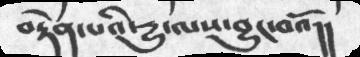བརྟེན་པའི་དྱུ་ལས་བྱུང་བའོ།།
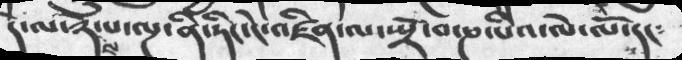དེ་ལ་ཉེས་པ་ལྔ་ནི་ཏིང་ངེ་འཛིན་ལ་སྤྲོ་བ་ཎ་པའི་ལེ་ལོ་དང༴
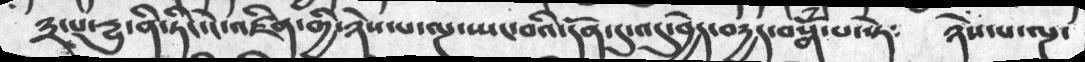༣་པ་དྱུ་ནི་ཏིང་ངེ་འཛིན་གྱི་ཉེས་པ་ལྔ་སྤང་བའི་དོན་དུ་འདུ་བྱེད་བདྱད་བསྒོཾ་པ་སྟེ༴   ཉེས་པ་ལྔ་
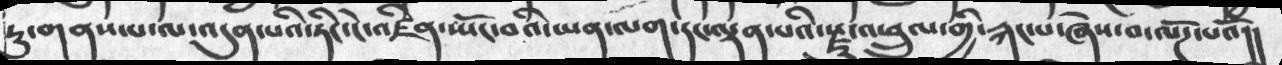ཏུ་གནས་པ་ལ་འདུན་པའི་ཏིང་ངེ་འཛིན་སྤོང་བའི་ཡན་ལག་དང་ལྡན་པའི་རྫུ་འཕྲུལ་གྱི་རྐང་པ་ཞེས་བ་ལོཌ་པའོ།།
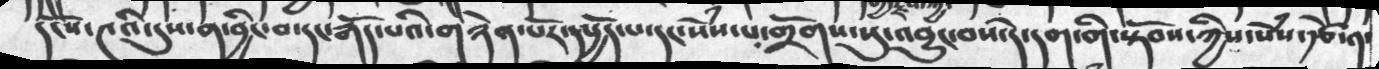དངོས་༤འི་དུས་ན་བྱིང་བ་དང་རྒོད་པའི་གཉེན་པོར་དཔྱོད་པ་དང་སེཾས་པ་གྲོགས་སུ་འབྱུང་བས་དེ་དག་གི་སྟོབས་ཀྱིས་སེཾས་རྩེ་༡་
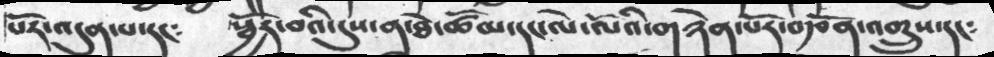པོར་འདུན་པ་དང༴.  སྦྱོར་བའི་དུས་ན་ཐེ་ཚོམ་དང་ལེ་ལོའི་གཉེན་པོར་བརྩོན་འགྲུས་དང༴
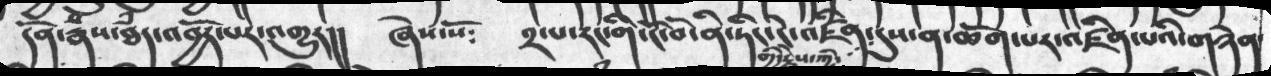དོན་རྣཾས་ཐཾད་འབྱོར་པར་འགྱར།།  ཞེས་སོ༴  ༢་པ་རང་གི་ངོ་བོ་ནི་ཏིང་ངེ་འཛིན་གྱི་རྗེས་ཀྱི་དུས་ན་ཆོག་པར་འཛིན་པའི་གཉེན
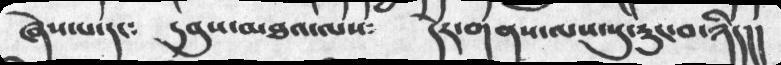ཞེས་པ་དང༴   དབུས་མཐའ་ལས༴   དེར་གནས་ལས་སུ་རུང་བ་ཉིད།།
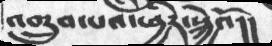འགྲུབ་པའི་ཕྱིར་སྐྱེའོ།།
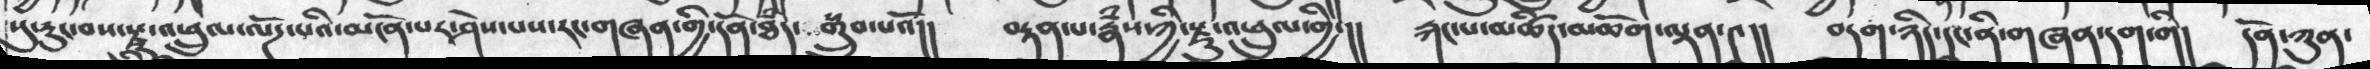སུ་རུང་བས་རྫུ་འཕྲུལ་ལོཌ་པའི་མངོན་པར་ཤེས་པས་རང་གཞན་གྱི་དོན་ཐཾད་སྒྲུབ་པའོ།།  བརྟན་པ་རྣཾས་ཀྱི་རྫུ་འཕྲུལ་གྱི་།།  རྐང་མཚིད་མཆོག་ལྡན་༤།།  བདག་ཉིད་དང་ནི་གཞན་དག་གི།  དོན་ཀུན་
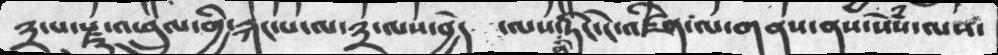༣་པ་རྫུ་འཕྲུལ་གྱི་རྐང་པ་ལ་༣་ལས་བྱེད  ་ལས་ནི་ཏིང་ངེ་འཛིན་ལ་གནས་ནས་སེཾས་ལས་
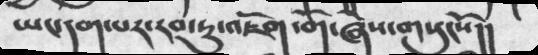ཡང་དག་པར་རབ་ཏུ་འཇོག་གོ་ཞེས་གསུངསོ།།
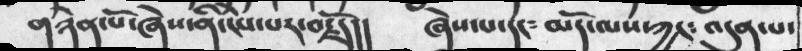གཉེན་པོ་ཞེས་ནི་ངེས་པར་བརྗོད།།    ཞེས་པ་དང༴ མདོ་སྨད་ལས་ཀྱང༴ འདུན་པ་
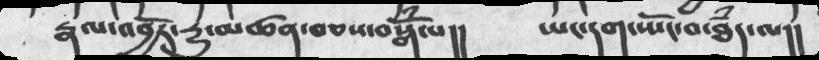རྣལ་འབྱོར་དྱུ་མཚན་བཅས་བསྒོཾ་པ།།     ཡང་དག་སྤོང་བ་ཐཾད་ལ།།
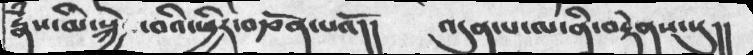རྣཾས་མི་སྐྱེ ་བའི་ཕྱིར་བརྩོན་པའོ།།   འདུན་པ་ལ་ནི་བརྟེནས་སུ།།
